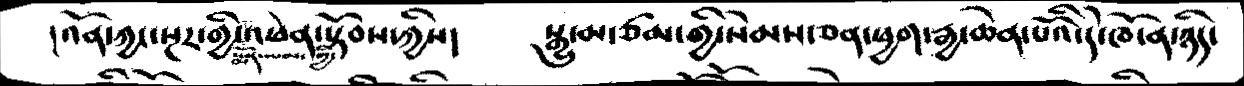།འོན་ཀྱང་སྔར་གྱི་སྨོན་ལམ་གྱི་འཕེན་སྟོབས་ཀྱིས།   སྒྱུ་མ་ཙམ་གྱི་སེམས་ཅན་ཕྱག་རྒྱ་ཆེན་པོའི་དེ་ཁོ་ན་ཉིད་
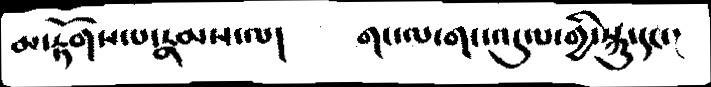མ་རྟོགས་པ་རྣམས་ལ།   གང་ལ་གང་འདུལ་གྱི་སྐུ་དང་།
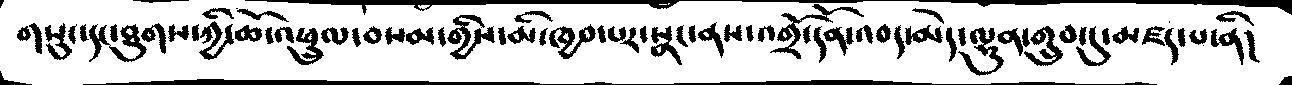གསུང་དང་ཐུགས་ཀྱི་ཆོ་འཕྲུལ་བསམ་གྱིས་མི་ཁྱབ་པར་སྣང་ནས་འགྲོ་དོན་འབད་མེད་ལྷུན་གྲུབ་དུ་མཛད་པ་ནི།
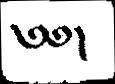༄༅།
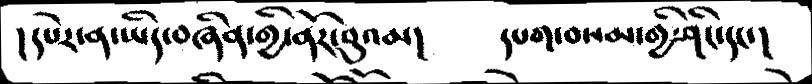།དཔེར་ན་ཡིད་བཞིན་གྱི་ནོར་བུའམ།   དཔག་བསམ་གྱི་ཤིང་དང་།
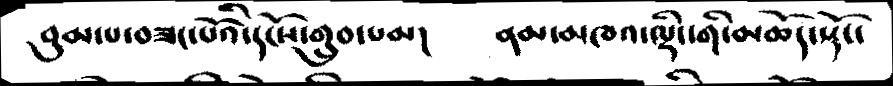བུམ་པ་བཟང་པོའི་དངོས་གྲུབ་བམ།   ནམ་མཁའ་ལྡིང་གི་མཆོད་སྡོང་
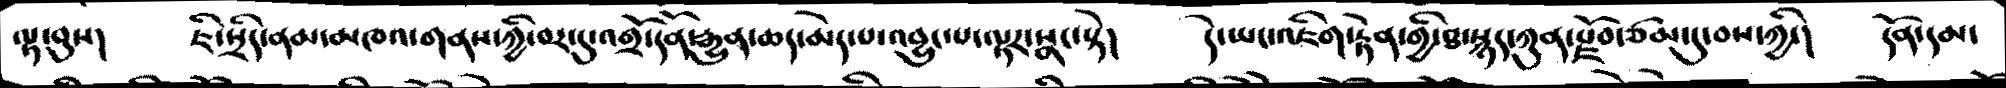ལྟ་བུས།   ཇི་སྲིད་ནམ་མཁའ་གནས་ཀྱི་བར་དུ་འགྲོ་དོན་རྒྱུན་ཆད་མེད་པ་འབྱུང་པ་ལྟར་སྣང་སྟེ།   དེ་ཡང་འཇིག་རྟེན་གྱི་ཐ་སྙད་ཀུན་རྫོབ་ཙམ་དུ་བས་ཀྱི་།  དོན་དམ་
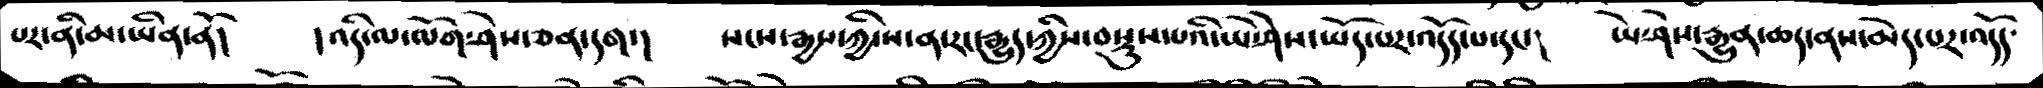པར་ནི་མ་ཡིན་ནོ།   །འདི་ལ་ལོག་ཤེས་ཅན་དག་།  སངས་རྒྱས་ཀྱི་ས་ན་རང་རྒྱུད་ཀྱིས་བསྡུས་པའི་ཡེ་ཤེས་ཡོད་པར་འདོད་པ་དང་།  ཡེ་ཤེས་རྒྱུན་ཆད་ནས་མེད་པར་འདོད་
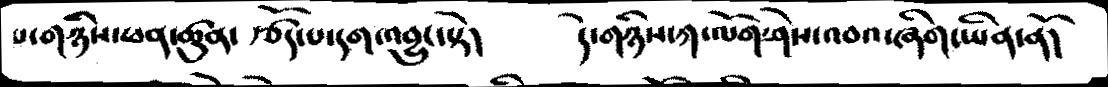པ་གཉིས་ཕན་ཚུན་རྩོད་པ་དག་འབྱུང་སྟེ།   དེ་གཉིས་ཀ་ལོག་ཤེས་འབའ་ཞིག་ཡིན་ནོ།
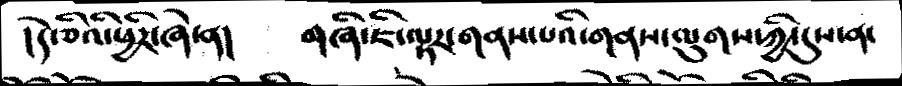།དེ་ཅིའི་ཕྱིར་ཞེ་ན།   གཞི་ཇི་ལྟར་གནས་པའི་གནས་ལུགས་ཀྱི་དུས་ན་
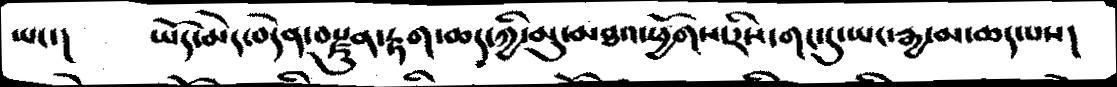ཡང་།   ཡོད་མེད་བདེན་བརྫུན་རྟག་ཆད་ཀྱི་མུ་མཐའ་ཕྱོགས་རིས་གང་དུ་ཡང་རྒྱ་མ་ཆད་པས།
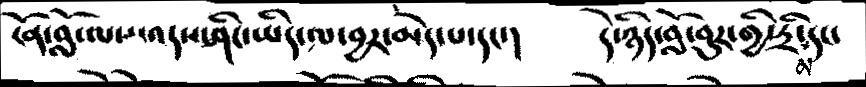ངོན་བློ་ལས་འདས་ཤིང་ཡིད་ལ་བྱར་མེད་པ་དང་།    དེ་ཉིད་བློ་བུར་གྱི་དྲི་མ་དང་
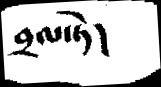བྲལ་ཏེ།
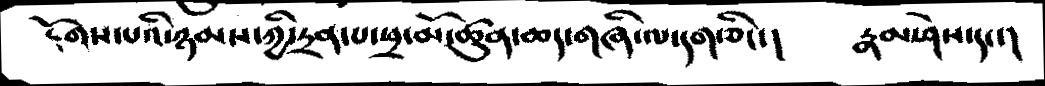རྟོགས་པའི་ཉམས་ཀྱི་དྲན་པ་ཕྲ་མོ་ཚུན་ཆད་གཞི་ལ་དག་ཅིང་།   རྣམ་ཤེས་དང་།
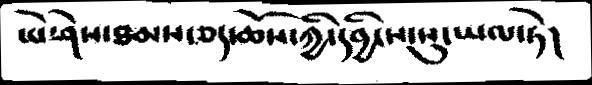ཡེ་ཤེས་ཐམས་ཅད་ཆོས་ཀྱི་དབྱིངས་སུ་ཡལ་ཏེ།
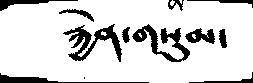རྐྱེན་གསུམ་
